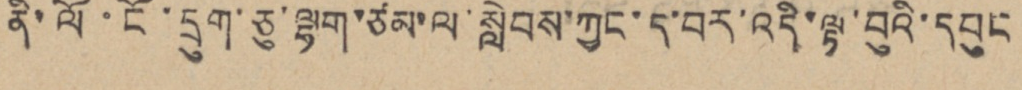ནི་ལོ་ངོ་དྲུག་ཅུ་ལྷག་ཙམ་ལ་སླེབས་ཀྱང་ད་བར་འདི་ལྟ་བུའི་དཔུང
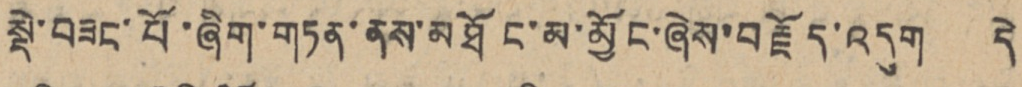སྡེ་བཟང་པོ་ཞིག་གཏན་ནས་མཐོང་མ་མྱོང་ཞེས་བརྗོད་འདུག དེ
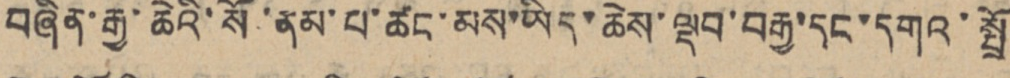བཞིན་རྒྱ་ཆེའི་སོ་ནམ་པ་ཚང་མས་ཡིད་ཆེས་ལྡབ་བརྒྱ་དང་དགའ་སྤྲོ
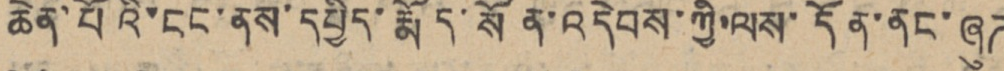ཆེན་པོའི་ངང་ནས་དཔྱིད་རྨོད་སོན་འདེབས་ཀྱི་ལས་དོན་ནང་ཞུཊ
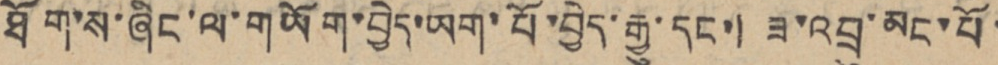ཐོག་ས་ཞིང་ལ་གཡོག་བྱེད་ཡག་པོ་བྱེད་རྒྱུ་དང་། ཟ་འབྲུ་མང་པོ་
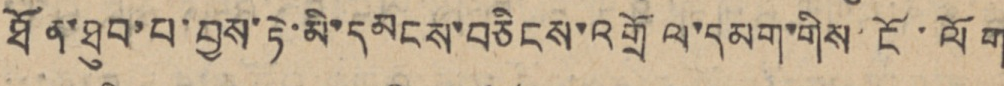ཐོན་ཐུབ་པ་བྱས་ཏེ་མི་དམངས་བཅིངས་འགྲོལ་དམག་གིས་ངོ་ལོག
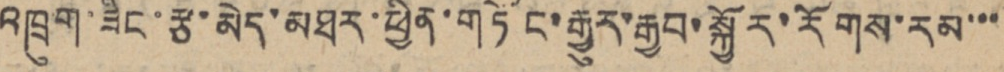འཁྲུག་ཟིང་རྩ་མེད་མཐར་ཕྱིན་གཏོང་རྒྱུར་རྒྱབ་སྐྱོར་རོགས་རམ་་་
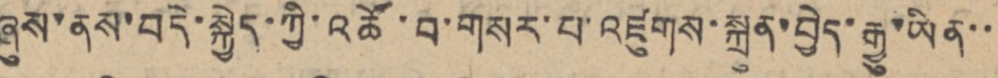ཞུས་ནས་བདེ་སྐྱེད་ཀྱི་འཚོ་བ་གསར་པ་འཛུགས་སྐྲུན་བྱེད་རྒྱུ་ཡིན་་
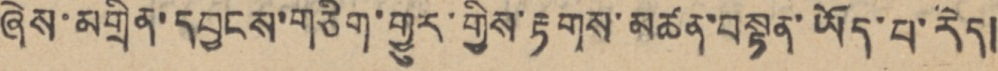ཞེས་མགྲིན་དབྱངས་གཅིག་གྱུར་གྱིས་རྟགས་མཚན་བསྟན་ཡོད་པ་རེད།
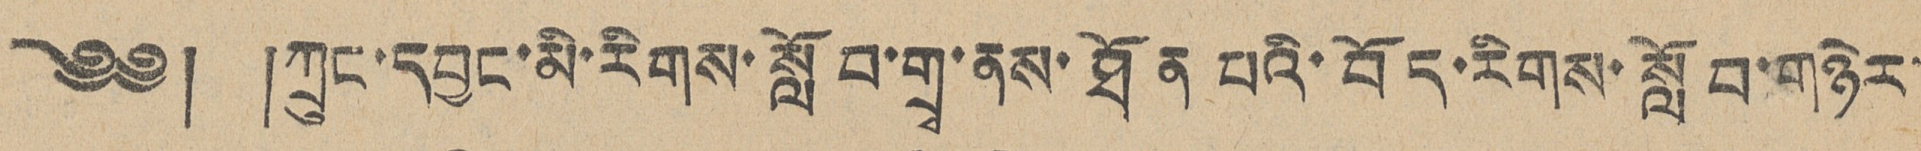༄༅། །ཀྲུང་དབྱང་མི་རིགས་སློབ་གྲྭ་ནས་ཐོན པའི་བོད་རིགས་སློབ་གཉེར་
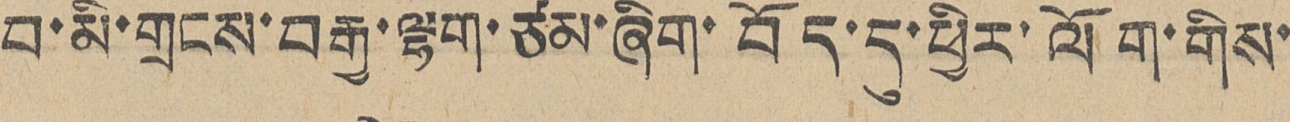བ་མི་གྲངས་བརྒྱ་ལྷག་ཙམ་ཞིག་བོད་དུ་ཕྱིར་ལོག་གིས་
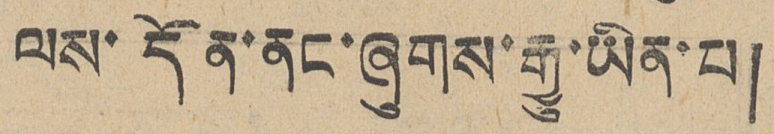ལས་དོན་ནང་ཞུགས་རྒྱུ་ཡིན་པ།
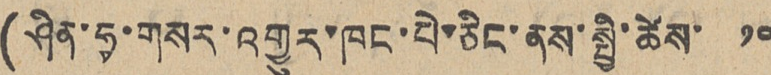(ཤིན་ཧྭ་གསར་འགྱུར་ཁང་པེ་ཅིང་ནས་སྤྱི་ཚེས་ ༡༠
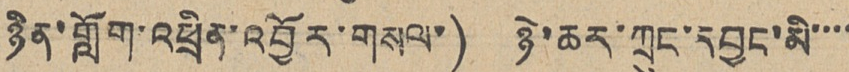ཉིན་གློག་འཕྲིན་འབྱོར་གསལ་) ཉེ་ཆར་ཀྲུང་དབྱང་མི་་་་
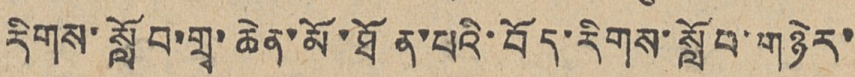རིགས་སློབ་གྲྭ་ཆེན་མོ་ཐོན་པའི་བོད་རིགས་སློབ་གཉེར་
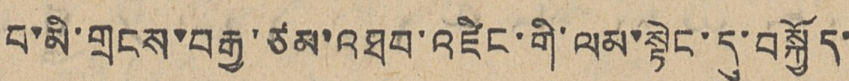པ་མི་གྲངས་བརྒྱ་ཙམ་འཐབ་འཛིང་གི་ལམ་སྟེང་དུ་བསྐྱོད་
